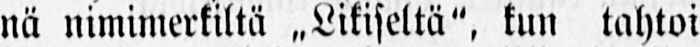nä nimimerkiltä ˶Likiseltä", kun tahtoi
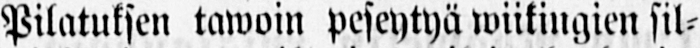Pilatuksen tawoin peseytyä wiikingien sil-
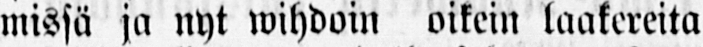missä ja nyt wihdoin oikein laakereita
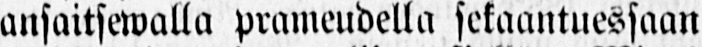ansaitsewalla prameudella sekaantuessaan
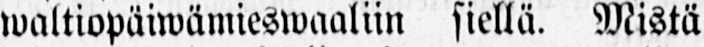waltiopäiwämieswaaliin siellä. Mistä
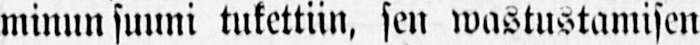minun suuni tukettiin, sen ˶wastustamisen
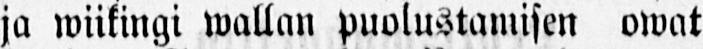ja wiikingi wallan puolustamisen owat
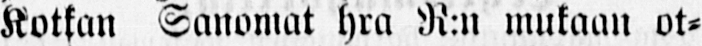Kotkan Sanomat hra R:n mukaan ot-
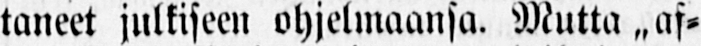taneet julkiseen ohjelmaansa. Mutta ˶af-
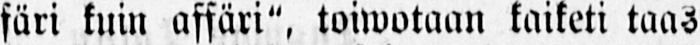färi kuin affäri", toiwotaan kaiketi taas
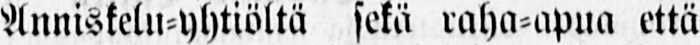Anniskelu-yhtiöltä sekä raha-apua että
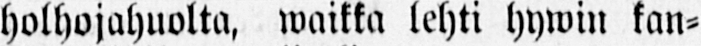holhojahuolta, waikka lehti hywin kan-
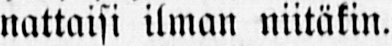nattaisi ilman niitäkin.
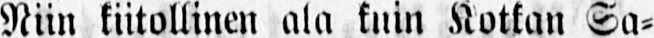Niin kiitollinen ala kuin Kotkan Sa-
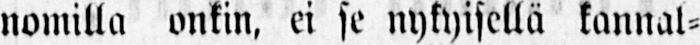nomilla onkin, ei se nykyisellä kannal-
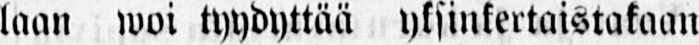laan woi tyydyttää yksinkertaistakaan
